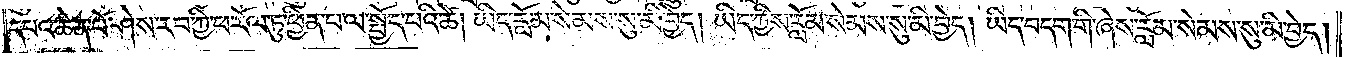དཔའ་ཆེན་པོ་ཤེས་རབ་ཀྱི་ཕ་རོལ་ཏུ་ཕྱིན་པ་ལ་སྤྱོད་པའི་ཚེ། ཡིད་རློམ་སེམས་སུ་མི་བྱེད། ཡིད་ཀྱིས་རློམ་སེམས་སུ་མི་བྱེད། ཡིད་བདག་གི་ཞེས་རློམ་སེམས་སུ་མི་བྱེད།
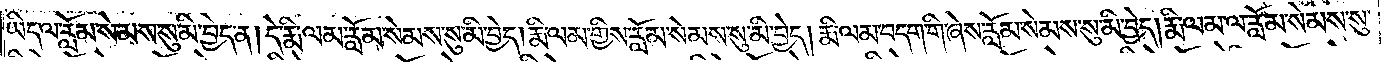ཡིད་ལ་རློམ་སེམས་སུ་མི་བྱེད་ན། དེ་རྨི་ལམ་རློམ་སེམས་སུ་མི་བྱེད། རྨི་ལམ་གྱིས་རློམ་སེམས་སུ་མི་བྱེད། རྨི་ལམ་བདག་གི་ཞེས་རློམ་སེམས་སུ་མི་བྱེད། རྨི་ལམ་ལ་རློམ་སེམས་སུ་
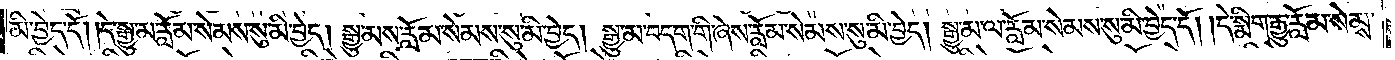མི་བྱེད་དོ། །དེ་སྒྱུ་མ་རློམ་སེམས་སུ་མི་བྱེད། སྒྱུ་མས་རློམ་སེམས་སུ་མི་བྱེད། སྒྱུ་མ་བདག་གི་ཞེས་རློམ་སེམས་སུ་མི་བྱེད། སྒྱུ་མ་ལ་རློམ་སེམས་སུ་མི་བྱེད་དོ། །དེ་སྨིག་རྒྱུ་རློམ་སེམས་
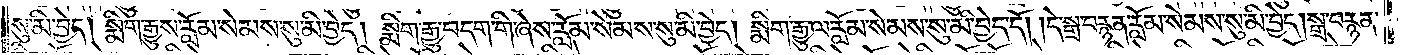སུ་མི་བྱེད། སྨིག་རྒྱུས་རློམ་སེམས་སུ་མི་བྱེད། སྨིག་རྒྱུ་བདག་གི་ཞེས་རློམ་སེམས་སུ་མི་བྱེད། སྨིག་རྒྱུ་ལ་རློམ་སེམས་སུ་མི་བྱེད་དོ། །དེ་སྒྲ་བརྙན་རློམ་སེམས་སུ་མི་བྱེད། སྒྲ་བརྙན་
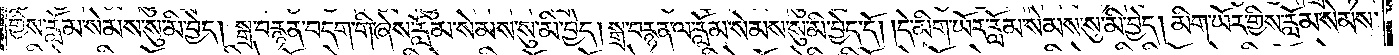གྱིས་རློམ་སེམས་སུ་མི་བྱེད། སྒྲ་བརྙན་བདག་གི་ཞེས་རློམ་སེམས་སུ་མི་བྱེད། སྒྲ་བརྙན་ལ་རློམ་སེམས་སུ་མི་བྱེད་དོ། །དེ་མིག་ཡོར་རློམ་སེམས་སུ་མི་བྱེད། མིག་ཡོར་གྱིས་རློམ་སེམས་
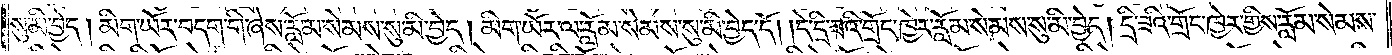སུ་མི་བྱེད། མིག་ཡོར་བདག་གི་ཞེས་རློམ་སེམས་སུ་མི་བྱེད། མིག་ཡོར་ལ་རློམ་སེམས་སུ་མི་བྱེད་དོ། །དེ་དྲི་ཟའི་གྲོང་ཁྱེར་རློམ་སེམས་སུ་མི་བྱེད། དྲི་ཟའི་གྲོང་ཁྱེར་གྱིས་རློམ་སེམས་
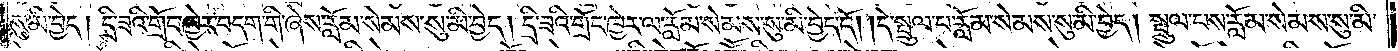སུ་མི་བྱེད། དྲི་ཟའི་གྲོང་ཁྱེར་བདག་གི་ཞེས་རློམ་སེམས་སུ་མི་བྱེད། དྲི་ཟའི་གྲོང་ཁྱེར་ལ་རློམ་སེམས་སུ་མི་བྱེད་དོ། །དེ་སྤྲུལ་པ་རློམ་སེམས་སུ་མི་བྱེད། སྤྲུལ་པས་རློམ་སེམས་སུ་མི་
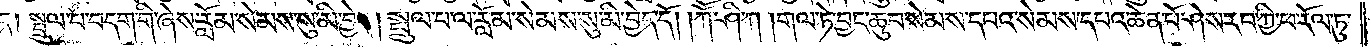བྱེད། སྤྲུལ་པ་བདག་གི་ཞེས་རློམ་སེམས་སུ་མི་བྱེད། སྤྲུལ་པ་ལ་རློམ་སེམས་སུ་མི་བྱེད་དོ། །ཀཽ་ཤི་ཀ། གལ་ཏེ་བྱང་ཆུབ་སེམས་དཔའ་སེམས་དཔའ་ཆེན་པོ་ཤེས་རབ་ཀྱི་ཕ་རོལ་ཏུ་
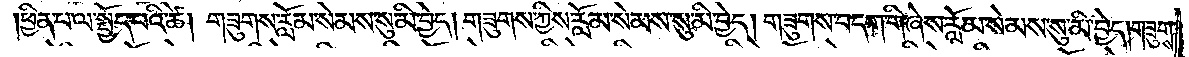ཕྱིན་པ་ལ་སྤྱོད་པའི་ཚེ། གཟུགས་རློམ་སེམས་སུ་མི་བྱེད། གཟུགས་ཀྱིས་རློམ་སེམས་སུ་མི་བྱེད། གཟུགས་བདག་གི་ཞེས་རློམ་སེམས་སུ་མི་བྱེད། གཟུགས་
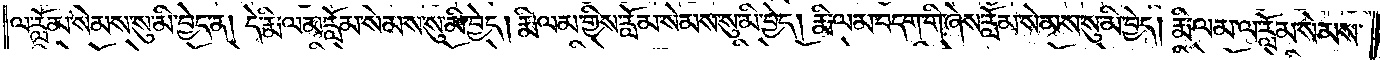ལ་རློམ་སེམས་སུ་མི་བྱེད་ན། དེ་རྨི་ལམ་རློམ་སེམས་སུ་མི་བྱེད། རྨི་ལམ་གྱིས་རློམ་སེམས་སུ་མི་བྱེད། རྨི་ལམ་བདག་གི་ཞེས་རློམ་སེམས་སུ་མི་བྱེད། རྨི་ལམ་ལ་རློམ་སེམས་
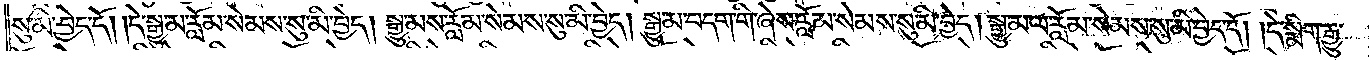སུ་མི་བྱེད་དོ། །དེ་སྒྱུ་མ་རློམ་སེམས་སུ་མི་བྱེད། སྒྱུ་མས་རློམ་སེམས་སུ་མི་བྱེད། སྒྱུ་མ་བདག་གི་ཞེས་རློམ་སེམས་སུ་མི་བྱེད། སྒྱུ་མ་ལ་རློམ་སེམས་སུ་མི་བྱེད་དོ། །དེ་སྨིག་རྒྱུ་
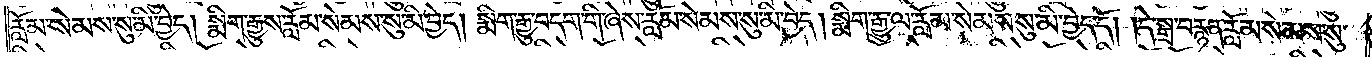རློམ་སེམས་སུ་མི་བྱེད། སྨིག་རྒྱུས་རློམ་སེམས་སུ་མི་བྱེད། སྨིག་རྒྱུ་བདག་གི་ཞེས་རློམ་སེམས་སུ་མི་བྱེད། སྨིག་རྒྱུ་ལ་རློམ་སེམས་སུ་མི་བྱེད་དོ། །དེ་སྒྲ་བརྙན་རློམ་སེམས་སུ་
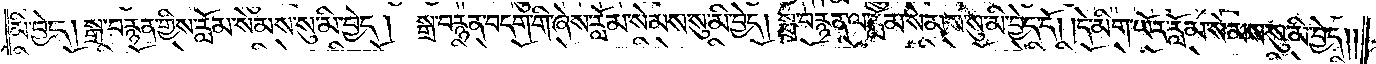མི་བྱེད། སྒྲ་བརྙན་གྱིས་རློམ་སེམས་སུ་མི་བྱེད། སྒྲ་བརྙན་བདག་གི་ཞེས་རློམ་སེམས་སུ་མི་བྱེད། སྒྲ་བརྙན་ལ་རློམ་སེམས་སུ་མི་བྱེད་དོ། །དེ་མིག་ཡོར་རློམ་སེམས་སུ་མི་བྱེད།
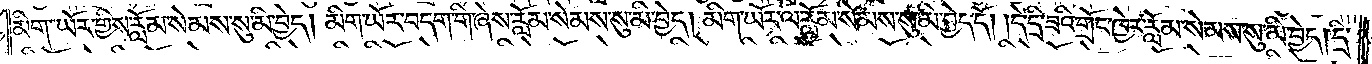མིག་ཡོར་གྱིས་རློམ་སེམས་སུ་མི་བྱེད། མིག་ཡོར་བདག་གི་ཞེས་རློམ་སེམས་སུ་མི་བྱེད། མིག་ཡོར་ལ་རློམ་སེམས་སུ་མི་བྱེད་དོ། །དེ་དྲི་ཟའི་གྲོང་ཁྱེར་རློམ་སེམས་སུ་མི་བྱེད། དྲི་
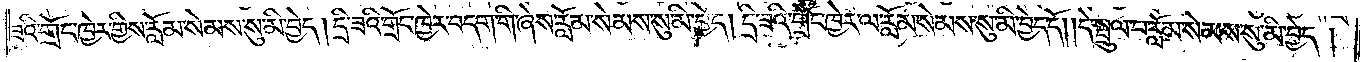ཟའི་གྲོང་ཁྱེར་གྱིས་རློམ་སེམས་སུ་མི་བྱེད། དྲི་ཟའི་གྲོང་ཁྱེར་བདག་གི་ཞེས་རློམ་སེམས་སུ་མི་བྱེད། དྲི་ཟའི་གྲོང་ཁྱེར་ལ་རློམ་སེམས་སུ་མི་བྱེད་དོ། །དེ་སྤྲུལ་པ་རློམ་སེམས་སུ་མི་བྱེད།
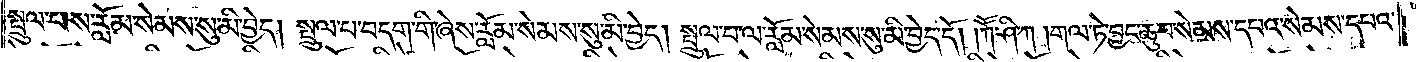སྤྲུལ་པས་རློམ་སེམས་སུ་མི་བྱེད། སྤྲུལ་པ་བདག་གི་ཞེས་རློམ་སེམས་སུ་མི་བྱེད། སྤྲུལ་པ་ལ་རློམ་སེམས་སུ་མི་བྱེད་དོ། ཀཽ་ཤི་ཀ་གལ་ཏེ་བྱང་ཆུབ་སེམས་དཔའ་སེམས་དཔའ་
